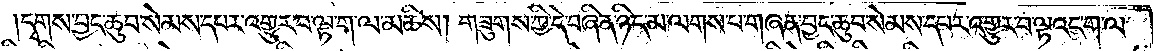དྭགས་བྱང་ཆུབ་སེམས་དཔར་འགྱུར་བ་ལྟ་ག་ལ་མཆིས། གཟུགས་ཀྱི་དེ་བཞིན་ཉིད་མ་ལགས་པ་གཞན་བྱང་ཆུབ་སེམས་དཔར་འགྱུར་བ་ལྟའང་ག་ལ་
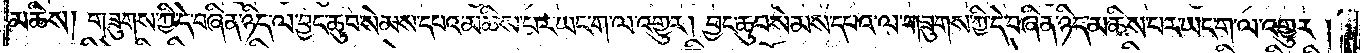མཆིས། གཟུགས་ཀྱི་དེ་བཞིན་ཉིད་ལ་བྱང་ཆུབ་སེམས་དཔའ་མཆིས་པར་ཡང་ག་ལ་འགྱུར། བྱང་ཆུབ་སེམས་དཔའ་ལ་གཟུགས་ཀྱི་དེ་བཞིན་ཉིད་མཆིས་པར་ཡང་ག་ལ་འགྱུར།
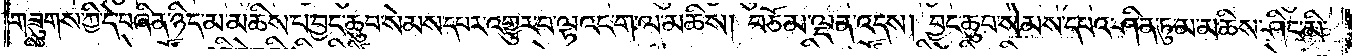གཟུགས་ཀྱི་དེ་བཞིན་ཉིད་མ་མཆིས་པ་བྱང་ཆུབ་སེམས་དཔར་འགྱུར་བ་ལྟའང་ག་ལ་མཆིས། བཅོམ་ལྡན་འདས། བྱང་ཆུབ་སེམས་དཔའ་ཤིན་ཏུ་མ་མཆིས་ཤིང་མི་
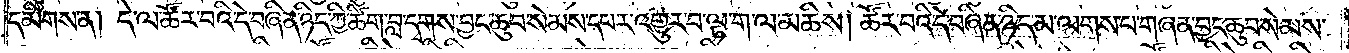དམིགས་ན། དེ་ལ་ཚོར་བའི་དེ་བཞིན་ཉིད་ཀྱི་ཚིག་བླ་དྭགས་བྱང་ཆུབ་སེམས་དཔར་འགྱུར་བ་ལྟ་ག་ལ་མཆིས། ཚོར་བའི་དེ་བཞིན་ཉིད་མ་ལགས་པ་གཞན་བྱང་ཆུབ་སེམས་
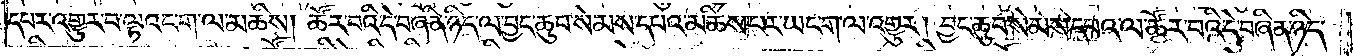དཔར་འགྱུར་བ་ལྟའང་ག་ལ་མཆིས། ཚོར་བའི་དེ་བཞིན་ཉིད་ལ་བྱང་ཆུབ་སེམས་དཔའ་མཆིས་པར་ཡང་ག་ལ་འགྱུར། བྱང་ཆུབ་སེམས་དཔའ་ལ་ཚོར་བའི་དེ་བཞིན་ཉིད་
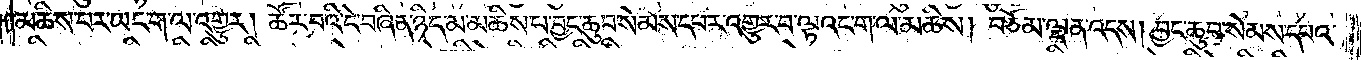མཆིས་པར་ཡང་ག་ལ་འགྱུར། ཚོར་བའི་དེ་བཞིན་ཉིད་མ་མཆིས་པ་བྱང་ཆུབ་སེམས་དཔར་འགྱུར་བ་ལྟའང་ག་ལ་མཆིས། བཅོམ་ལྡན་འདས། བྱང་ཆུབ་སེམས་དཔའ་
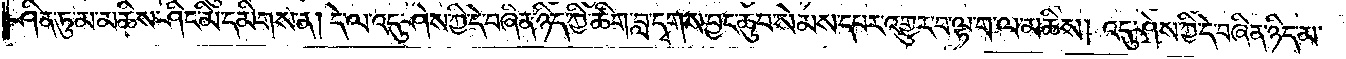ཤིན་ཏུ་མ་མཆིས་ཤིང་མི་དམིགས་ན། དེ་ལ་འདུ་ཤེས་ཀྱི་དེ་བཞིན་ཉིད་ཀྱི་ཚིག་བླ་དྭགས་བྱང་ཆུབ་སེམས་དཔར་འགྱུར་བ་ལྟ་ག་ལ་མཆིས། འདུ་ཤེས་ཀྱི་དེ་བཞིན་ཉིད་མ་
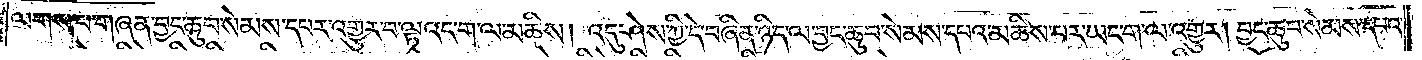ལགས་པ་གཞན་བྱང་ཆུབ་སེམས་དཔར་འགྱུར་བ་ལྟའང་ག་ལ་མཆིས། འདུ་ཤེས་ཀྱི་དེ་བཞིན་ཉིད་ལ་བྱང་ཆུབ་སེམས་དཔའ་མཆིས་པར་ཡང་ག་ལ་འགྱུར། བྱང་ཆུབ་སེམས་དཔའ་
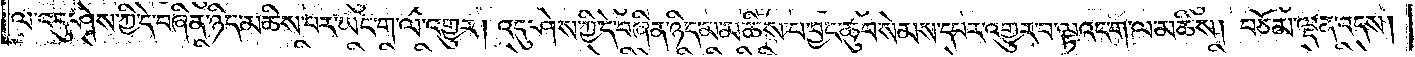ལ་འདུ་ཤེས་ཀྱི་དེ་བཞིན་ཉིད་མཆིས་པར་ཡང་ག་ལ་འགྱུར། འདུ་ཤེས་ཀྱི་དེ་བཞིན་ཉིད་མ་མཆིས་པ་བྱང་ཆུབ་སེམས་དཔར་འགྱུར་བ་ལྟའང་ག་ལ་མཆིས། བཅོམ་ལྡན་འདས།
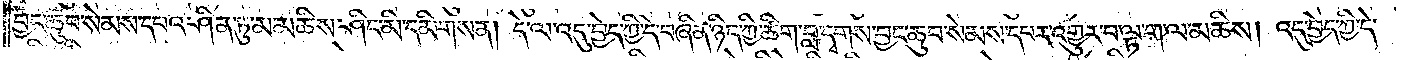བྱང་ཆུབ་སེམས་དཔའ་ཤིན་ཏུ་མ་མཆིས་ཤིང་མི་དམིགས་ན། དེ་ལ་འདུ་བྱེད་ཀྱི་དེ་བཞིན་ཉིད་ཀྱི་ཚིག་བླ་དྭགས་བྱང་ཆུབ་སེམས་དཔར་འགྱུར་བ་ལྟ་ག་ལ་མཆིས། འདུ་བྱེད་ཀྱི་དེ་
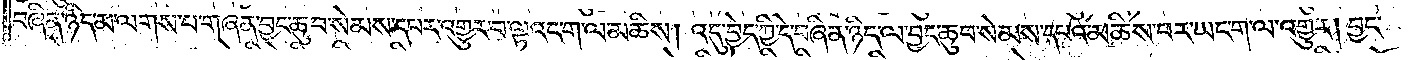བཞིན་ཉིད་མ་ལགས་པ་གཞན་བྱང་ཆུབ་སེམས་དཔར་འགྱུར་བ་ལྟའང་ག་ལ་མཆིས། འདུ་བྱེད་ཀྱི་དེ་བཞིན་ཉིད་ལ་བྱང་ཆུབ་སེམས་དཔའ་མཆིས་པར་ཡང་ག་ལ་འགྱུར། བྱང་
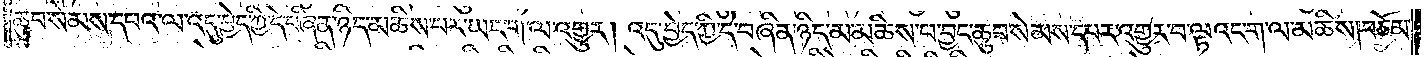ཆུབ་སེམས་དཔའ་ལ་འདུ་བྱེད་ཀྱི་དེ་བཞིན་ཉིད་མཆིས་པར་ཡང་ག་ལ་འགྱུར། འདུ་བྱེད་ཀྱི་དེ་བཞིན་ཉིད་མ་མཆིས་པ་བྱང་ཆུབ་སེམས་དཔར་འགྱུར་བ་ལྟའང་ག་ལ་མཆིས། བཅོམ་
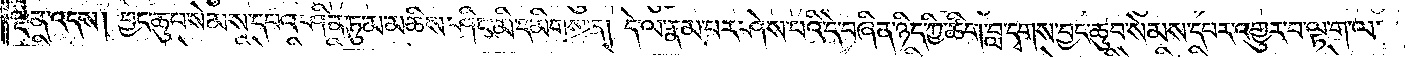ལྡན་འདས། བྱང་ཆུབ་སེམས་དཔའ་ཤིན་ཏུ་མ་མཆིས་ཤིང་མི་དམིགས་ན། དེ་ལ་རྣམ་པར་ཤེས་པའི་དེ་བཞིན་ཉིད་ཀྱི་ཚིག་བླ་དྭགས་བྱང་ཆུབ་སེམས་དཔར་འགྱུར་བ་ལྟ་ག་ལ་
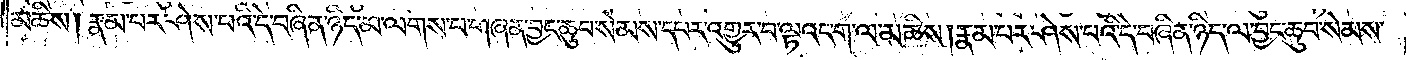མཆིས། རྣམ་པར་ཤེས་པའི་དེ་བཞིན་ཉིད་མ་ལགས་པ་གཞན་བྱང་ཆུབ་སེམས་དཔར་འགྱུར་བ་ལྟའང་ག་ལ་མཆིས། རྣམ་པར་ཤེས་པའི་དེ་བཞིན་ཉིད་ལ་བྱང་ཆུབ་སེམས་
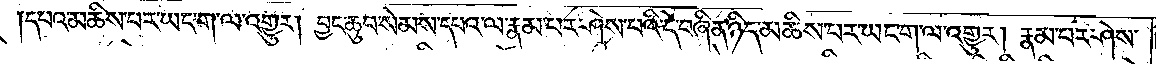དཔའ་མཆིས་པར་ཡང་ག་ལ་འགྱུར། བྱང་ཆུབ་སེམས་དཔའ་ལ་རྣམ་པར་ཤེས་པའི་དེ་བཞིན་ཉིད་མཆིས་པར་ཡང་ག་ལ་འགྱུར། རྣམ་པར་ཤེས་
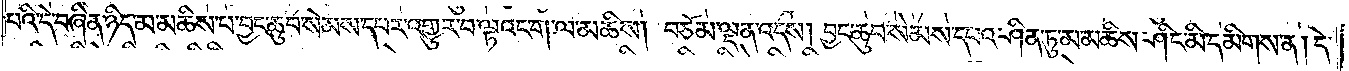པའི་དེ་བཞིན་ཉིད་མ་མཆིས་པ་བྱང་ཆུབ་སེམས་དཔར་འགྱུར་བ་ལྟའང་ག་ལ་མཆིས། བཅོམ་ལྡན་འདས། བྱང་ཆུབ་སེམས་དཔའ་ཤིན་ཏུ་མ་མཆིས་ཤིང་མི་དམིགས་ན། དེ་
